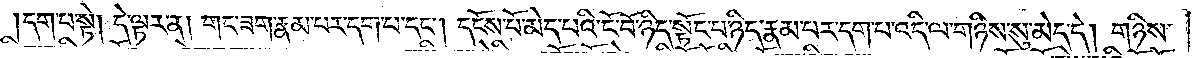དག་པ་སྟེ། དེ་ལྟར་ན། གང་ཟག་རྣམ་པར་དག་པ་དང༌། དངོས་པོ་མེད་པའི་ངོ་བོ་ཉིད་སྟོང་པ་ཉིད་རྣམ་པར་དག་པ་འདི་ལ་གཉིས་སུ་མེད་དེ། གཉིས་
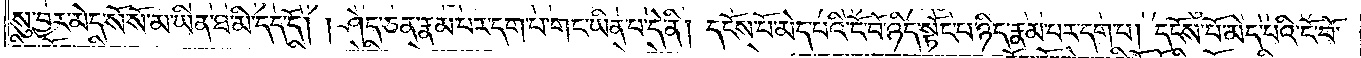སུ་བྱར་མེད་སོ་སོ་མ་ཡིན་ཐ་མི་དད་དོ། །ཤེད་ཅན་རྣམ་པར་དག་པ་གང་ཡིན་པ་དེ་ནི། དངོས་པོ་མེད་པའི་ངོ་བོ་ཉིད་སྟོང་པ་ཉིད་རྣམ་པར་དག་པ། དངོས་པོ་མེད་པའི་ངོ་བོ་
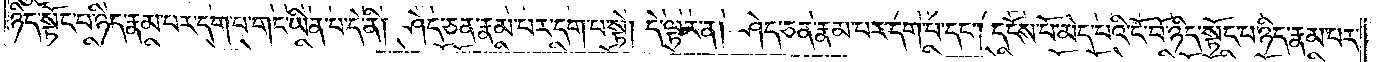ཉིད་སྟོང་པ་ཉིད་རྣམ་པར་དག་པ་གང་ཡིན་པ་དེ་ནི། ཤེད་ཅན་རྣམ་པར་དག་པ་སྟེ། དེ་ལྟར་ན། ཤེད་ཅན་རྣམ་པར་དག་པ་དང༌། དངོས་པོ་མེད་པའི་ངོ་བོ་ཉིད་སྟོང་པ་ཉིད་རྣམ་པར་
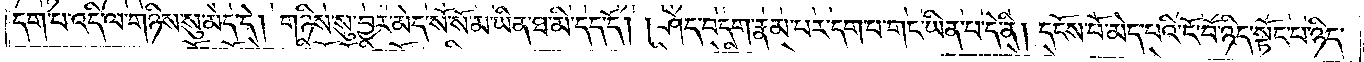དག་པ་འདི་ལ་གཉིས་སུ་མེད་དེ། གཉིས་སུ་བྱར་མེད་སོ་སོ་མ་ཡིན་ཐ་མི་དད་དོ། །ཤེད་བདག་རྣམ་པར་དག་པ་གང་ཡིན་པ་དེ་ནི། དངོས་པོ་མེད་པའི་ངོ་བོ་ཉིད་སྟོང་པ་ཉིད་
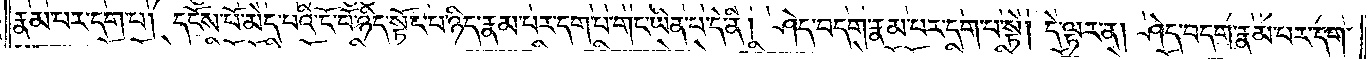རྣམ་པར་དག་པ། དངོས་པོ་མེད་པའི་ངོ་བོ་ཉིད་སྟོང་པ་ཉིད་རྣམ་པར་དག་པ་གང་ཡིན་པ་དེ་ནི། ཤེད་བདག་རྣམ་པར་དག་པ་སྟེ། དེ་ལྟར་ན། ཤེད་བདག་རྣམ་པར་དག་
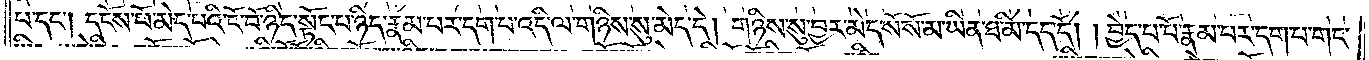པ་དང༌། དངོས་པོ་མེད་པའི་ངོ་བོ་ཉིད་སྟོང་པ་ཉིད་རྣམ་པར་དག་པ་འདི་ལ་གཉིས་སུ་མེད་དེ། གཉིས་སུ་བྱར་མེད་སོ་སོ་མ་ཡིན་ཐ་མི་དད་དོ། །བྱེད་པ་པོ་རྣམ་པར་དག་པ་གང་
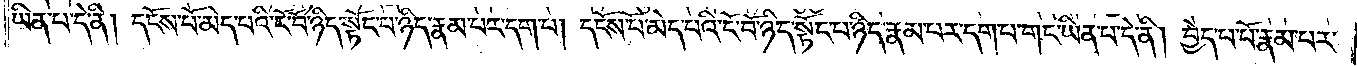ཡིན་པ་དེ་ནི། དངོས་པོ་མེད་པའི་ངོ་བོ་ཉིད་སྟོང་པ་ཉིད་རྣམ་པར་དག་པ། དངོས་པོ་མེད་པའི་ངོ་བོ་ཉིད་སྟོང་པ་ཉིད་རྣམ་པར་དག་པ་གང་ཡིན་པ་དེ་ནི། བྱེད་པ་པོ་རྣམ་པར་
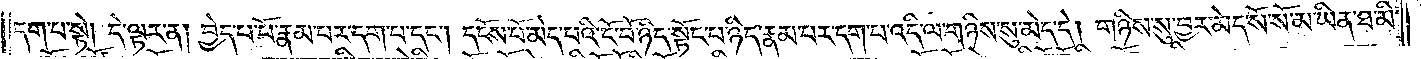དག་པ་སྟེ། དེ་ལྟར་ན། བྱེད་པ་པོ་རྣམ་པར་དག་པ་དང༌། དངོས་པོ་མེད་པའི་ངོ་བོ་ཉིད་སྟོང་པ་ཉིད་རྣམ་པར་དག་པ་འདི་ལ་གཉིས་སུ་མེད་དེ། གཉིས་སུ་བྱར་མེད་སོ་སོ་མ་ཡིན་ཐ་མི་
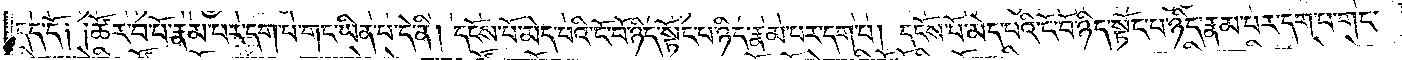དད་དོ། །ཚོར་བ་པོ་རྣམ་པར་དག་པ་གང་ཡིན་པ་དེ་ནི། དངོས་པོ་མེད་པའི་ངོ་བོ་ཉིད་སྟོང་པ་ཉིད་རྣམ་པར་དག་པ། དངོས་པོ་མེད་པའི་ངོ་བོ་ཉིད་སྟོང་པ་ཉིད་རྣམ་པར་དག་པ་གང་
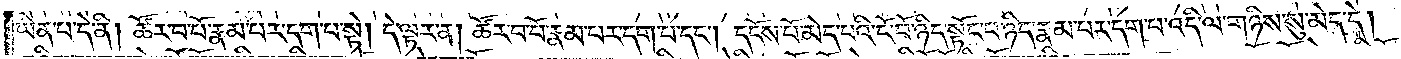ཡིན་པ་དེ་ནི། ཚོར་བ་པོ་རྣམ་པར་དག་པ་སྟེ། དེ་ལྟར་ན། ཚོར་བ་པོ་རྣམ་པར་དག་པ་དང༌། དངོས་པོ་མེད་པའི་ངོ་བོ་ཉིད་སྟོང་པ་ཉིད་རྣམ་པར་དག་པ་འདི་ལ་གཉིས་སུ་མེད་དེ།
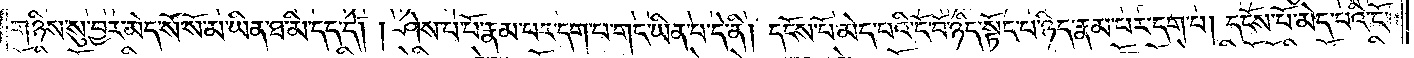གཉིས་སུ་བྱར་མེད་སོ་སོ་མ་ཡིན་ཐ་མི་དད་དོ། །ཤེས་པ་པོ་རྣམ་པར་དག་པ་གང་ཡིན་པ་དེ་ནི། དངོས་པོ་མེད་པའི་ངོ་བོ་ཉིད་སྟོང་པ་ཉིད་རྣམ་པར་དག་པ། དངོས་པོ་མེད་པའི་ངོ་
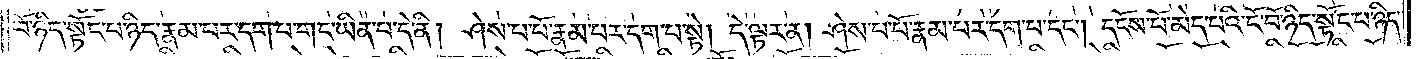བོ་ཉིད་སྟོང་པ་ཉིད་རྣམ་པར་དག་པ་གང་ཡིན་པ་དེ་ནི། ཤེས་པ་པོ་རྣམ་པར་དག་པ་སྟེ། དེ་ལྟར་ན། ཤེས་པ་པོ་རྣམ་པར་དག་པ་དང༌། དངོས་པོ་མེད་པའི་ངོ་བོ་ཉིད་སྟོང་པ་ཉིད་
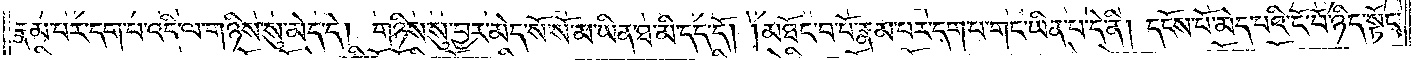རྣམ་པར་དག་པ་འདི་ལ་གཉིས་སུ་མེད་དེ། གཉིས་སུ་བྱར་མེད་སོ་སོ་མ་ཡིན་ཐ་མི་དད་དོ། །མཐོང་བ་པོ་རྣམ་པར་དག་པ་གང་ཡིན་པ་དེ་ནི། དངོས་པོ་མེད་པའི་ངོ་བོ་ཉིད་སྟོང་
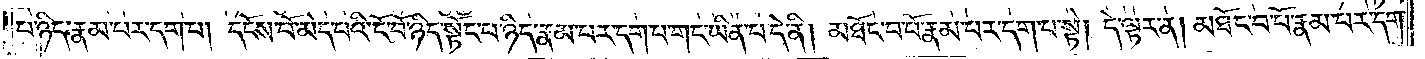པ་ཉིད་རྣམ་པར་དག་པ། དངོས་པོ་མེད་པའི་ངོ་བོ་ཉིད་སྟོང་པ་ཉིད་རྣམ་པར་དག་པ་གང་ཡིན་པ་དེ་ནི། མཐོང་བ་པོ་རྣམ་པར་དག་པ་སྟེ། དེ་ལྟར་ན། མཐོང་བ་པོ་རྣམ་པར་དག་
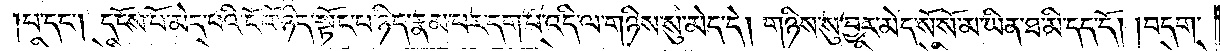པ་དང༌། དངོས་པོ་མེད་པའི་ངོ་བོ་ཉིད་སྟོང་པ་ཉིད་རྣམ་པར་དག་པ་འདི་ལ་གཉིས་སུ་མེད་དེ། གཉིས་སུ་བྱར་མེད་སོ་སོ་མ་ཡིན་ཐ་མི་དད་དོ། །བདག་
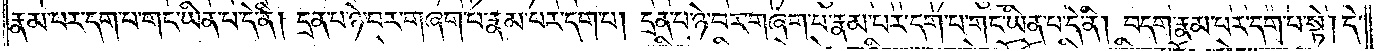རྣམ་པར་དག་པ་གང་ཡིན་པ་དེ་ནི། དྲན་པ་ཉེ་བར་གཞག་པ་རྣམ་པར་དག་པ། དྲན་པ་ཉེ་བར་གཞག་པ་རྣམ་པར་དག་པ་གང་ཡིན་པ་དེ་ནི། བདག་རྣམ་པར་དག་པ་སྟེ། དེ་
